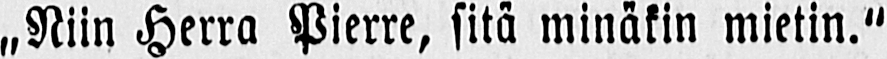„Niin Herra Pierre, sitä minäkin mietin."
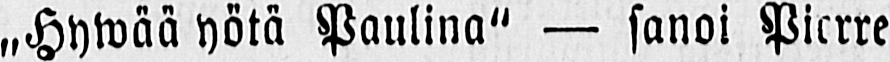„Hywää yötä Paulina" — sanoi Pierre
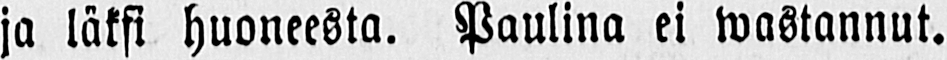ja läksi huoneesta. Paulina ei wastannut.
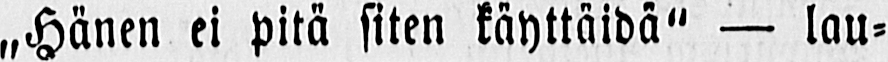„Hänen ei pitä siten käyttäidä" — lau-
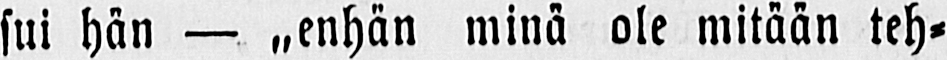sui hän — „enhän minä ole mitään teh-
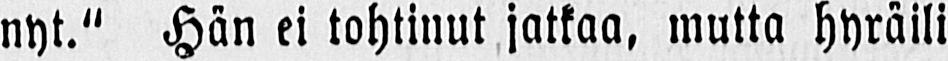nyt." Hän ei tohtinut jatkaa, mutta hyräili
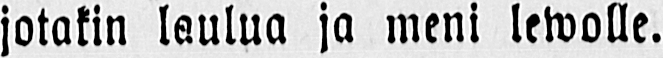jotakin laulua ja meni lewolle.
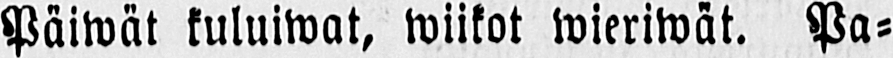Päiwät kuluiwat, wiikot wieriwät. Pa-
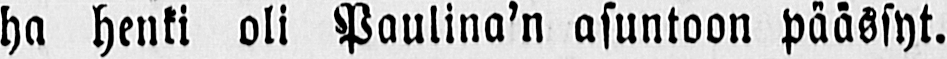ha henki oli Paulina’n asuntoon päässyt.
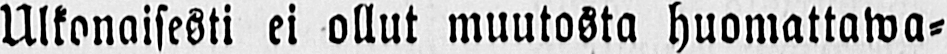Ulkonaisesti ei ollut muutosta huomattawa-
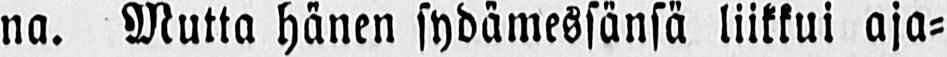na. Mutta hänen sydämessänsä liikkui aja-
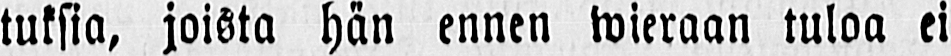tuksia, joista hän ennen wieraan tuloa ei
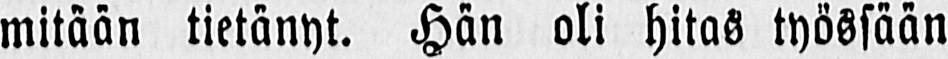mitään tietänyt. Hän oli hitas työssään
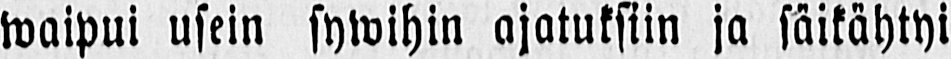waipui usein syihin ajatuksiin ja säikähtyi
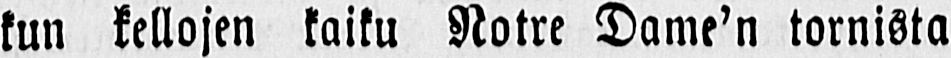kun kellojen kaiku Notre Dame’n tornista
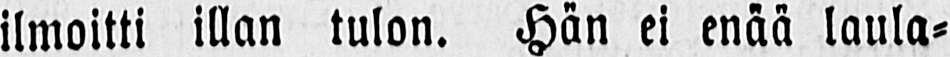ilmoitti illan tulon. Hän ei enää laula-
